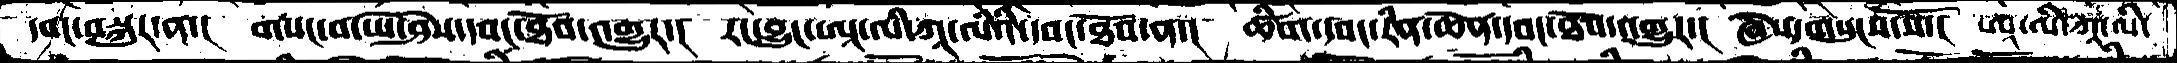དབང་བསྐུར་ན་།  གསང་བ་ཡེ་ཤེས་དབང་ཐོབ་འགྱུར་།  རང་བྱུང་ཨཱ་ལི་ཀཱ་ལིའི་དབང་ཐོབ་ན་།  ཚིག་དབང་རིན་ཆེན་དབང་ཐོབ་འགྱུར་།  ཞེས་གསུངས་སོ་།  ཨཱ་ལི་ཀཱ་ལི་
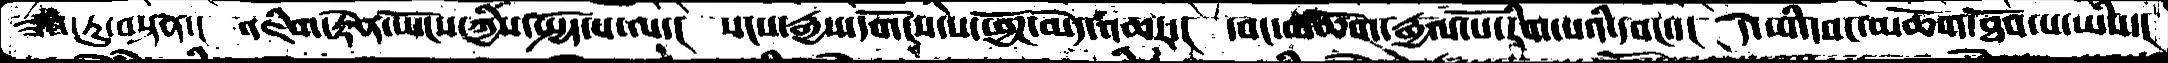ཟས་རུ་བསྟན་།  འཇིག་རྟེན་ཡོངས་ཀྱིས་སྤྱོད་པ་ལ་།  སངས་རྒྱས་དགོངས་པ་ཕྱོཌ་མེད་འཆར་།  དབང་མཆོག་རྒྱལ་པོ་རིག་པའི་དབང་་།  དེ་ཡི་དབང་མཆོག་ཐོབ་པ་ཡིས་།
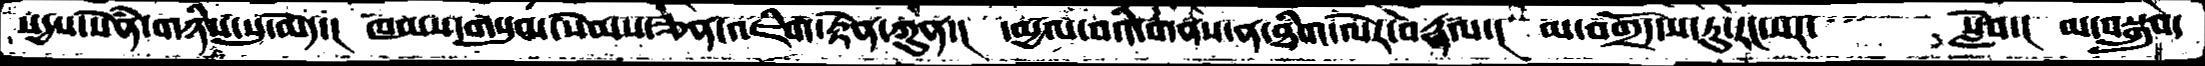སདྱས་སེནཾ་གཉིས་སུ་མེད་།  ཁམས་གསུམ་སེམས་ཅན་འཇིག་རྟེན་ཀུན་།  དམྱལ་བའི་གནས་ན་ཐིག་ལེར་བརྡལ་།  མ་བགྲོད་ས་རུ་རང་སར་     སླེབ་།   མ་བསྒྲུབ་
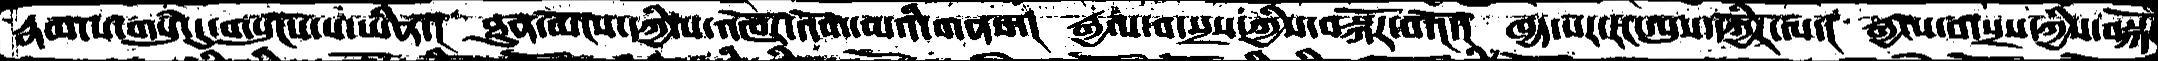རྣམས་གསུཾ་དུ་གསུངས་པ་ཡིན་།  ཐུན་མོངས་དཀྱིལ་འཁོར་འོག་མའི་གནས་།  རྒྱལ་བ་སྲས་ཀྱིས་བསྐོར་བའོ་།  ཁྱད་པར་རང་ལུས་དཀྱོིར་ལ་།  རྒྱལ་བ་སྲས་ཀྱིས་བསྐོར
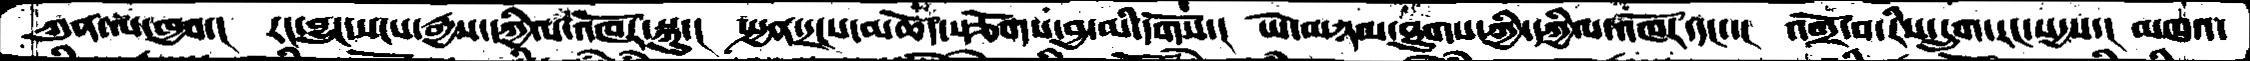ཀུན་ལ་ཁྱབ་།   རང་བྱུང་སངས་རྒྱས་དཀྱིལ་འཁོར་སྐུ་།  སྤྱན་དྲངས་མཆོད་སྩོགས་བྱ་མི་དགོས་།   ཡེ་མཉམ་ཐུགས་ཀྱི་དཀྱིལ་འཁོར་དང་་།  འགྲོ་བ་རིས་དྲུག་རང་སདྱས་།  མཁའ་
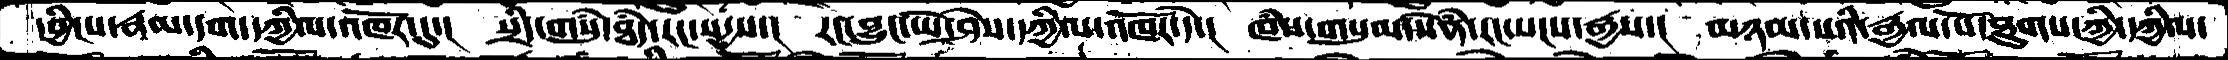དབྱིངས་རྣམ་དག་དཀྱིལ་འཁོར་དུ་།   སྲིད་གསུཾ་ཐཾད་རང་སདྱས་།  རང་བྱུང་ཡེ་ཤེས་དཀྱིལ་ཱཁོར་དེ་།  ཁཾས་གསུམ་སེཾན་རང་སངས་རྒྱས་།  མཉམ་པའི་རྒྱལ་པོ་ཐུགས་ཀྱི་དཀྱིལ་
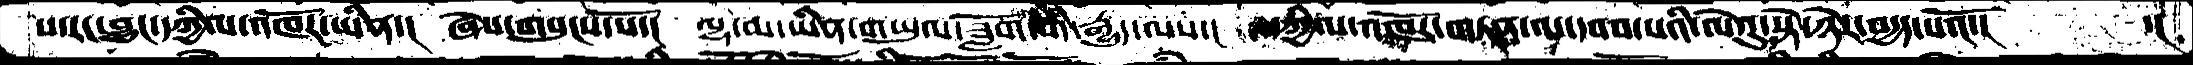པ་རང་བྱུང་དཀྱིལ་འཁོར་ཡིན་།  ཞེས་གསུངས་སོ་།  ལྷ་མ་ཡིན་གཡུལ་ཟློག་གི་རྒྱུད་ལས་།  དཀྱིལ་འཁོར་གཏན་ལ་དབབ་པའི་ལེའུ་སྟེ་ཉེར་བདྱད་པའོ་།  ་།
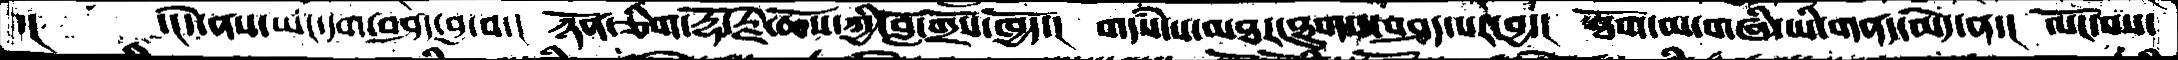་།    ་ངདེ་ནས་ཡང་དག་བཤད་བྱ་བ་།  ཉོན་ཅིག་རྡོ་རྗེ་ཆོས་ཀྱི་བློ་གྲོས་ཁྱོད་།   གདཾས་པ་མཐར་ཐུག་བཤད་པར་བྱ་།  ཐོག་མ་གཞི་ཡི་གནད་མེད་ན་།  ལོང་བས་
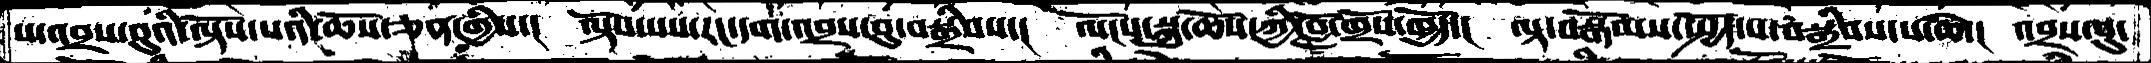ས་འབྲས་བུའི་ལྟོས་པའི་ཆོས་ཅན་གྱིས་།   ལྟོས་པས་རང་དག་འབྲས་བུ་བསྒྲིབས་།  ལོངས་སྐུ་ཆོས་ཀྱི་བློ་གྲོས་ཁྱོད་།  ལྟ་བསྒོམས་སྤྱོད་པ་བསྒྲིབས་པ་མེད་།  འབྲས་བུ་
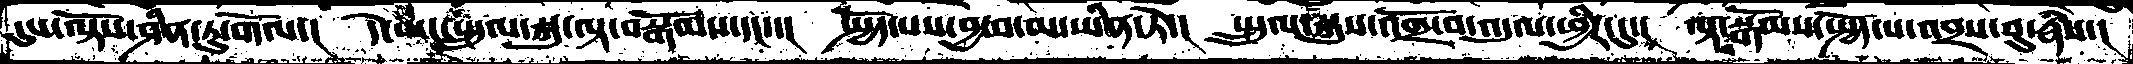དུས་ལྟོས་ཤིན་ཏུ་གོལ་།  དེ་ཡང་སྤྲུལ་སྐུ་ལྟ་བསྒོམས་དང་།  སྤྱོད་པས་བྱ་བ་མ་ཡིན་ཏེ་།  སྤྲུལ་སྐུས་འགྲོ་བ་འདུལ་ཕྱིར་དུ་།  ལྟ་སྒོམས་སྤྱོད་པ་འབྲས་བུ་རྣཾས་།
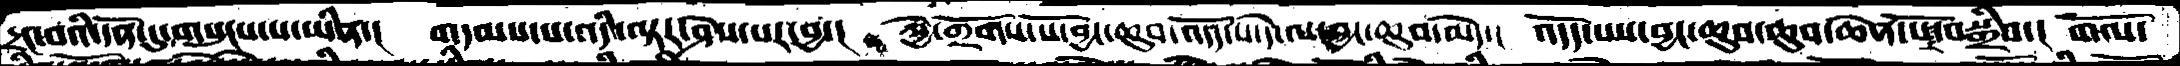དྲང་བའི་དོན་དུ་གསུངས་པ་ཡིན་།  གདམས་པ་འདི་ལྟར་ཤེས་པར་བྱ་།  ཀྱེ་གྲོགས་པོ་བྱང་ཆུབ་འདོད་པ་དེ་ལ་བྱང་ཆུབ་མེད་།  འདོད་པས་བྱང་ཆུབ་ཆེན་པོ་བསྒྲིབ་།  གོལ་
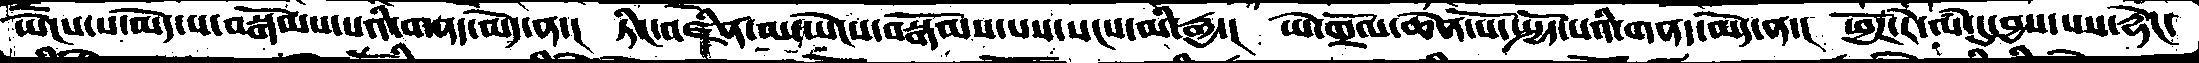ཡེངས་པ་མེད་པབསྒོམས་པའི་གནད་མེད་ན་།  ཏིང་འཛིན་མ་ཡེངས་བསྒོམས་པས་སངས་མི་རྒྱས་།  ཡེ་གྲོལ་ཆེན་པོ་སྤྱོད་པའི་གནད་མེད་ན་།  ཕྱོཌ་རེ་ལཾ་དུ་བྱས་པས་རྡེང་
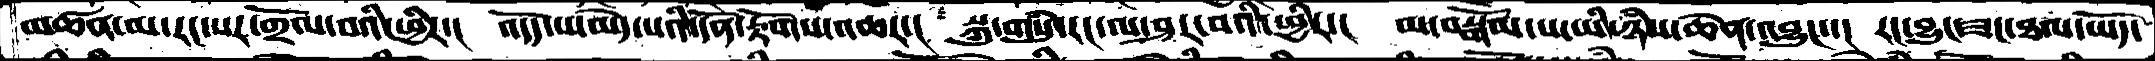མཚན་མ་རང་སར་གྲོལ་བའི་ཕྱིར་།  འདོད་པ་མེད་པའི་དོན་རྟོགས་འཆར་།  སྐུ་གསུཾ་རང་ལ་ཤར་བའི་ཕྱིར་།  མ་བསྒོམ་པ་ཡི་ཉཾས་ཆེན་འབྱུང་་།  རང་བྱུང་ཟང་ཐལ་ཡོད་
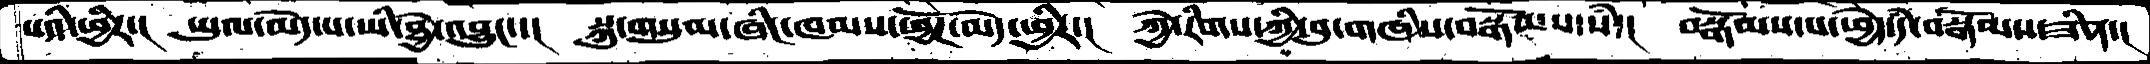པའི་ཕྱིར་།  ཡུལ་མེད་པ་ཡི་ཐྱེ་འབྱུང་་།  སྐུ་གསུམ་ཞིང་ཁམས་ཕྱོཌ་མེད་ཕྱིར་།  ཀྱེ་རིགས་ཀྱི་བུ་གཞིས་བསྒོམས་སཾ་།   བསྒོམས་པ་ཕྱེད་དཾ་བསྒོམས་ཟིན་།
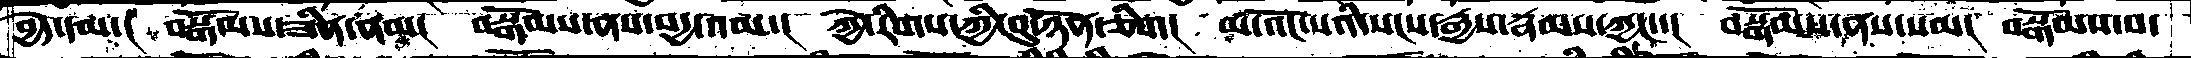བྱེད་དམ་།   བསྒོམས་ཟིན་ནས།   བསྒོམས་ནས་བདྱ་འམ་།  ཀྱེ་རིགས་ཀྱི་བུ་ཉོན་ཅིག།  མ་འོང་པའི་སངས་རྒྱས་རྣམས་ཀྱང་།  བསྒོམས་ནས་སམ།  བསྒོམས་པ་
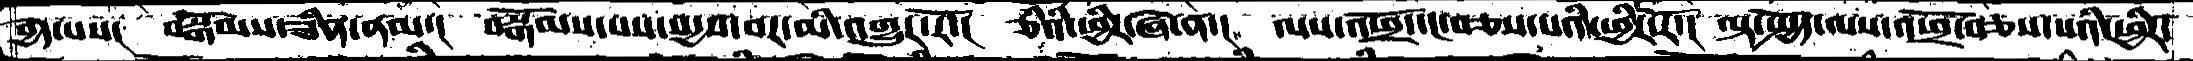བྱེད་པས།  བསྒོམས་ཟིན་ནམ་།   བསྒོམས་པས་སདྱས་བར་མི་འགྱུར་རོ་།  ཅིའི་ཕྱིར་ཞེ་ན་།  ལས་འཕྲོ་དང་བཅས་པའི་ཕྱིར་རོ་།  ལྟ་སྤྱོད་ལས་འཕྲོ་བཅས་པའི་ཕྱིར།
